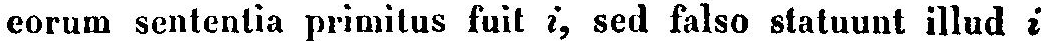eorum sententia primitus fuit i, sed falso statuunt illud i
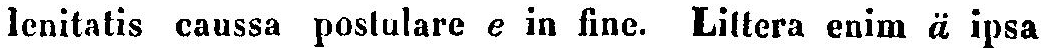lenitatis caussa postulare e in fine. Littera enim ä ipsa
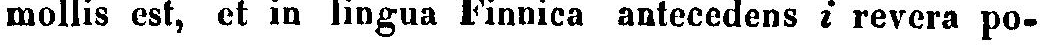mollis est, et in lingua Finnica antecedens i revera po-
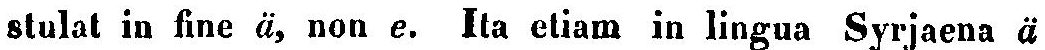stulat in fine ä, non e. Ita etiam in lingua Syrjaena ä
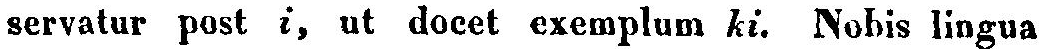servatur post i, ut docet exemplum ki. Nobis lingua
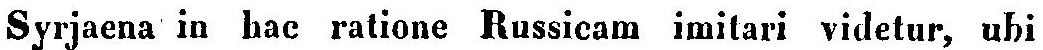Syrjaena in hac ratione Russicam imitari videtur, ubi
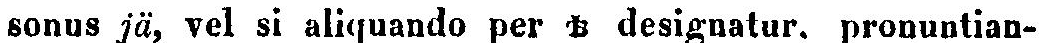sonus jä, vel si aliquando per ѣ designatur, pronuntian-
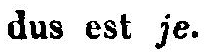dus est je.
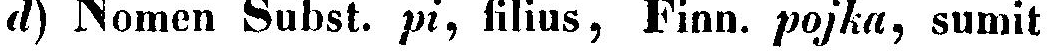d) Nomen Subst. pi, silius, Finn. pojka, sumit
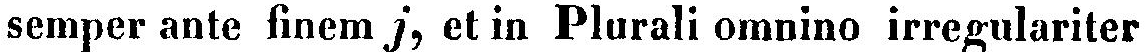semper ante finem j, et in Plurali omnino irregulariter
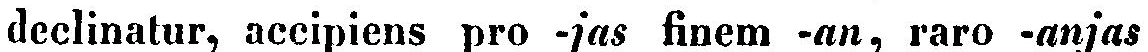declinatur, accipiens pro -jas finem -an, raro -anjas
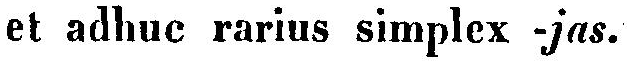et adhuc rarius simplex -jas.
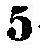5
